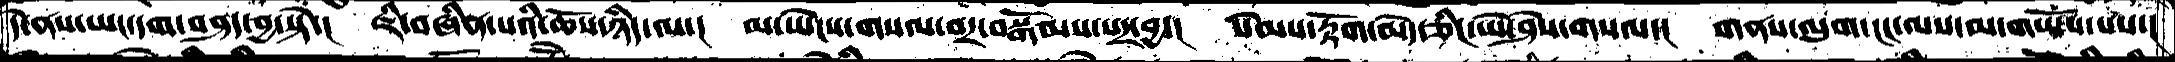དེ་ནས་ཡང་དག་བཤད་བྱ་སྟེ་།  ཇི་བཞིན་པའི་ཆོས་ཉིད་ལ་།  མ་ཡེངས་གསལ་བར་བསྒོམས་པར་བྱ་།  སེམས་རྟོག་མེད་ཅིང་ཡེ་ཤེས་གསལ་།  གནས་ལུགས་ངང་ལས་མ་གཡོས་པས་།
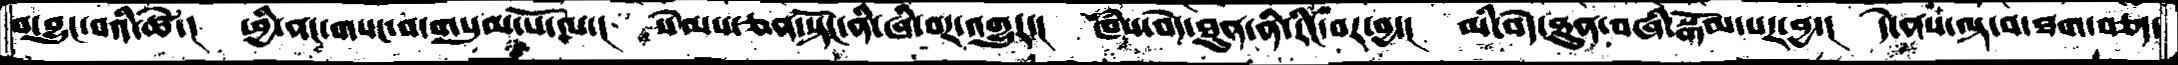བ་བྱུང་བའི་ཚེ་།  ཕྱི་ནང་གསང་བ་གསུམ་པོ་ལ་།  སེམས་ཅན་སྟོང་ནི་ཞི་བར་འགྱུར་།  ཁཾས་བདེ་ཐུན་ནི་རིང་བར་བྱ་།  མི་བདེ་ཐུན་བཞི་སྒོམ་པར་བྱ་།  དེ་ནས་ལྟ་བ་ཐག་བཅད་
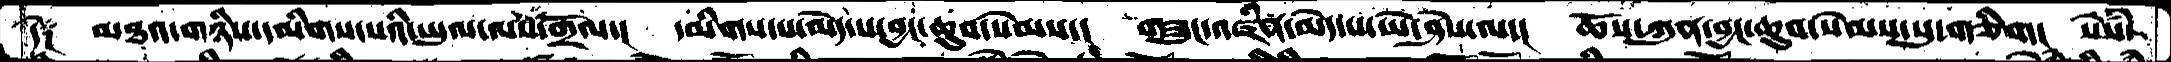དེ༑   མཐའ་གཉིས་དམིགས་་པའི་ཡུལ་ལས་གྲོལ་།  དམིགས་པ་མེད་པ་བྱང་ཆུབ་སེམས་།  གཟུང་འཛིན་མེད་པ་ཡེ་ཤེས་ལ་།  ཆོས་ཀུན་བྱང་ཆུབ་སེམས་སུ་གཅིག།  སེཾས་
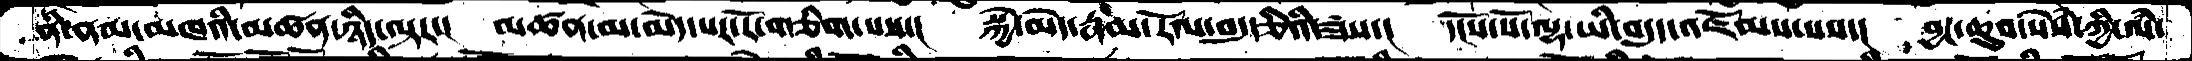ནི་ནམ་མཁའི་མཚན་ཉིད་ལྟར་།  མཚན་མ་མེད་པར་རོ་གཅིག་པས་།  སྐྱེ་མེད་རྣམ་རོལ་བདུདརྩིའི་ཟས་།  དངོས་པོ་ལྷ་ཡི་བདུད་འཇོམས་པས་།  བྱང་ཆུབ་སེཾས་ཀྱི་ལཾ་
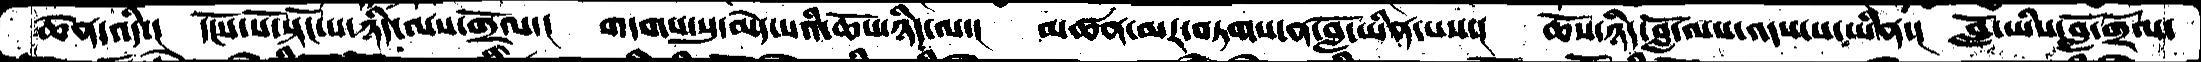ཆེན་འདི་།  དངོས་པོ་སྟོང་པ་ཉིད་ལས་གྲོལ་།  གདགས་སུ་མེད་པའི་ཆོས་ཉིད་ལ་།  མཚན་མར་བཏགས་ན་བློ་ཡིན་པས་།   ཆོས་ཉིད་བློ་ལས་འདས་པ་ཡིན།  བློ་ཡིས་བློ་གྲོལ་
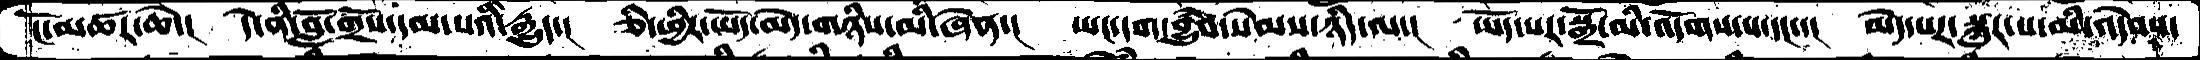ངོ་མཚར་ཆེ་།   དེ་ནི་བློ་གྲོས་དམ་པའི་རྒྱུད་།  ཅི་ཕྱིར་ཡོད་མེད་གཉིས་མི་ཞེན་།  ཡང་དག་བྱུཾབ་སེམས་ཉིད་ལ་།  ཡོད་པར་སྒྲོ་མི་འདོགས་པ་དང་་།  མེད་པར་སྐུར་པ་མི་འདེབས་
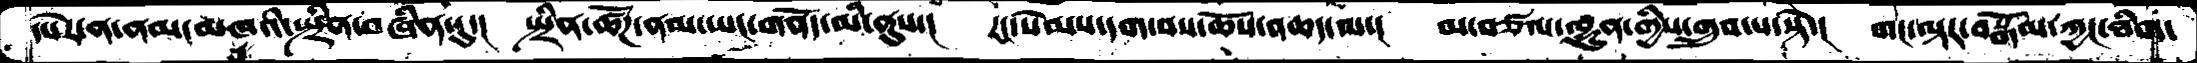དཔེར་ན་ནམ་མཁའི་སྤྲིན་བཞིན་དུ་།  སྤྲིན་ཚོཌ་ནམ་ཡང་གནོད་མི་ནུས་།  རང་སེམས་དག་པས་ཆོས་འཆད་ལ་།  མ་བཙལ་ལྷུན་གྱིས་གྲུབ་པ་སྟེ་།  གང་ལྟར་བསྒོམ་ཀྱང་ཐིག་
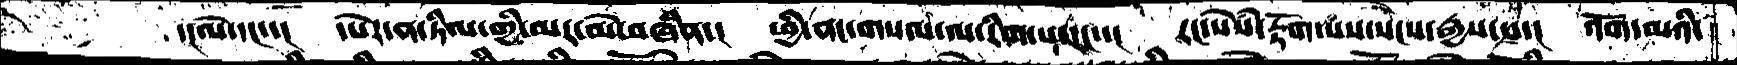་།ལེ་དང་་།  དཔེར་ན་ཏིལ་གྱི་མར་མེ་བཞིན་།  ཕྱི་ནང་གསལ་ལ་རིག་པ་དང་་།  རང་སེཾས་རྟོག་པས་སངས་རྒྱས་ས་།  འོག་མའི་
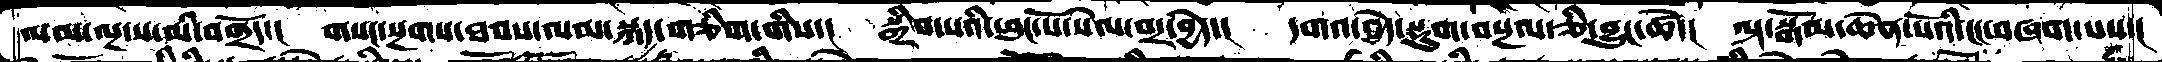ལམ་ལྔ་ས་མི་བགྲོད་།  གསང་སྔགས་ཐབས་ལམ་སྐད་ཅིག་གིས་།  སྒྲིབ་པའི་ཕུང་པོ་སེལ་བར་བྱེད་།  དགའ་བྱེད་སྡུག་བསྔལ་ཅི་བྱུང་ཚེ་།  ལྟ་སྒོམ་ཆེན་པོའི་ངང་བཞག་པས་།
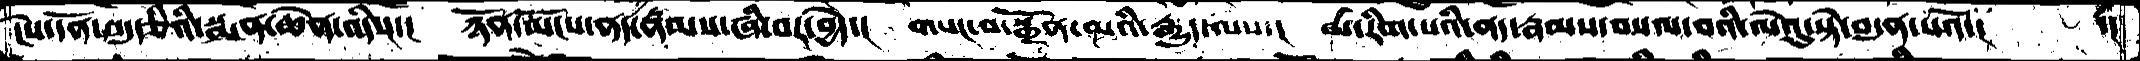ངེས་དོན་བདུརྩིའི་སྨན་ཆེན་འདིས་།  ཉོན་མོངས་ནད་རྣམས་ཞི་བར་བྱེད་།  གསང་བ་སྒྲོན་མའི་རྒྱུད་ལས་།  མ་རིག་པའི་ནད་རྣམས་བསལ་བའི་ལེའུ་སྟེ་བདུན་པའོ་།   ་།
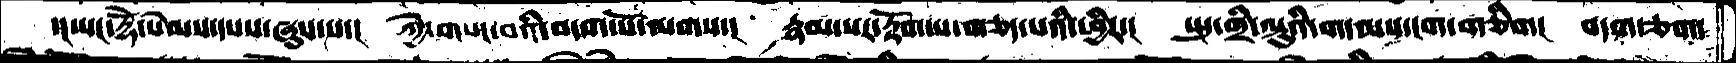་།ཡང་རྡོེ་སེམས་དཔས་ཞུས་པ་།  ཀྱེ་གསང་བའི་བདག་པོ་ལགས་།  རྣམ་པར་རྟོག་པ་གཅད་པའི་ཕྱིར་།  སྤུ་གྲི་ལྟུའི་གདམས་ངག་གཅིག།  བདག་ཅག་
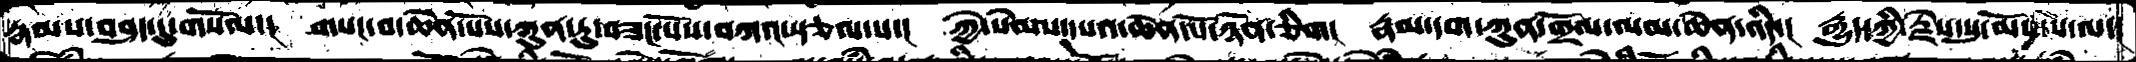རྣམས་བཤད་དུ་གསོལ་།  གསང་བ་ཆེན་པོས་ཀུན་ཏུ་བཟང་པོས་བཀའ་སྩལ་པ་།  ཀྱེ་སེམས་དཔའ་ཆེན་པོ་ཉོན་ཅིག།  རྣམ་དག་ཀུན་གྲོལ་ལམ་ཆེན་འདི་།  རྒྱུད་ཀྱི་རྗེས་སུ་མོས་པ་ལ་།
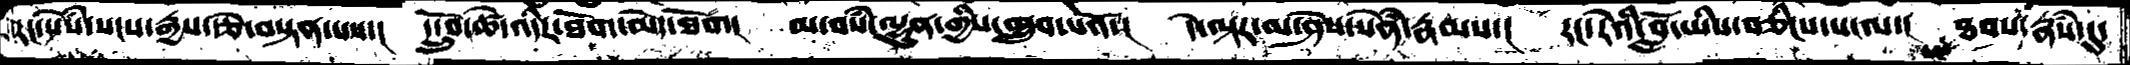རང་སེཾས་སངས་རྒྱས་རྩེ་བསྟན་པས་།  དངྲོུབ་ཚེ་འདིར་ཐོག་མེད་ཐོབ་།  མ་བསཾ་ལྷུན་གྱིས་གྲུབ་པའོ་།  དེ་ལྟར་མ་ཤེས་སེཾན་རྣམས་།  རང་རེའི་བློ་ཡིས་བཅིངས་པ་ལ་།  ཐབས་རྣཾས་དུ་
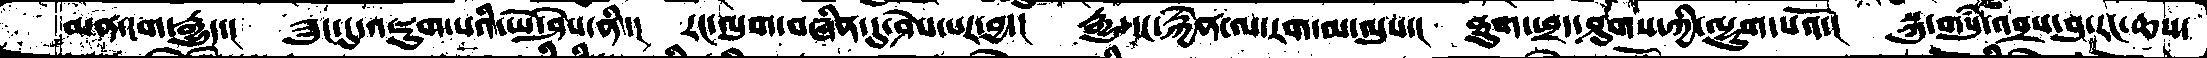མན་ངག་རྒྱུད་།  ཟུང་དུ་འཇུག་པའི་ཡེ་ཤེས་ནི་།   རང་ལུག་བཞིན་དུ་ཤེས་པར་བྱ་།  རྒྱུ་དང་རྐྱེན་ལ་རག་མ་ལུས་།  ཐུག་ཕྲད་ཤུགས་ཀྱི་ལྷུག་པའོ་།  སྐུ་གསུཾ་འབྲས་བུ་རང་ཆས་
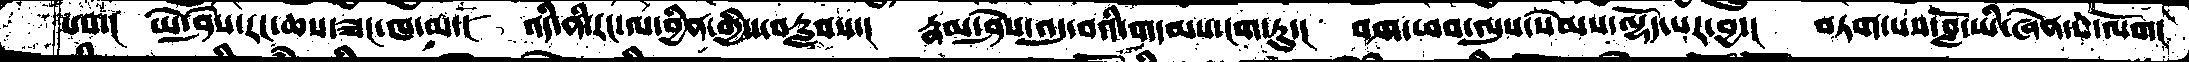པས་།  ཡེ་ཤེས་རང་ཆས་ཟང་ཁ་མ་།  འདི་ནི་རང་ལ་བྱིན་གྱིས་བརླབས་།  རྣམ་ཤེས་འདུ་བའི་གདམས་ངག་ཏུ་།  བག་ཕབ་ལུས་སེམས་ལྷོད་པར་བྱ་།  བཏག་པའི་བློ་ཡི་ཞེན་པ་ལོག།
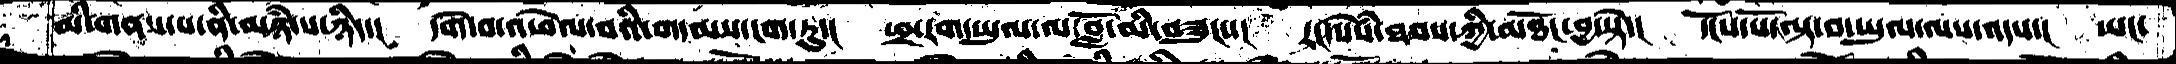མི་གནས་པ་ནི་མཉཾ་པ་ཉིད་།  དགེ་བ་འཕེལ་བའི་གདམས་ངག་ཏུ་།  ཕྲ་རག་ཡུལ་ལ་བློ་མི་བཟུང་་།  རང་སེཾས་ཐབས་ཀྱི་མཐོང་བྱ་སྟེ་།  དངོས་པོ་ལྟ་བ་ཡུལ་ལས་འདས་།  ཡང་
